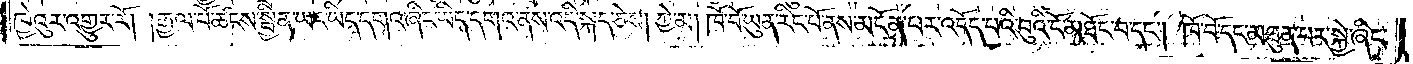ཁྱེའུར་འགྱུར་རོ། །རྒྱལ་པོ་ཚངས་སྦྱིན་ཡང་ཡིད་དགའ་ཡིད་དགའ་ནས་འདི་སྐད་ཅེས། ཀྱེ་མ། ཁོ་བོ་ཡུན་རིང་པོ་ནས་མངོན་པར་འདོད་པའི་བུའི་ངོ་མཐོང་བ་དང༌། ཁོ་བོ་དང་མཐུན་པར་སྐྱེ་ཞིང་
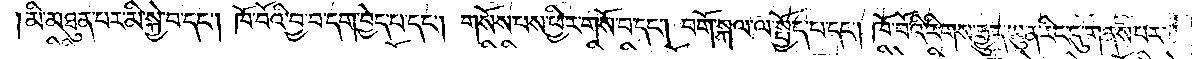མི་མཐུན་པར་མི་སྐྱེ་བ་དང༌། ཁོ་བོའི་བྱ་བ་དག་བྱེད་པ་དང༌། གསོས་པས་ཕྱིར་གསོ་བ་དང༌། བགོ་སྐལ་ལ་སྤྱོད་པ་དང༌། ཁོ་བོའི་རིགས་རྒྱུད་ཡུན་རིང་དུ་གནས་པར་
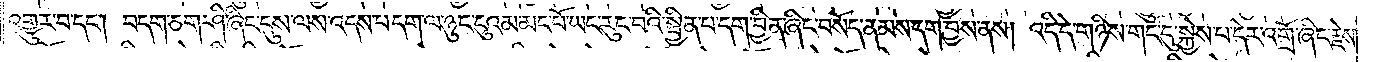འགྱུར་བ་དང༌། བདག་ཅག་ཤི་ཞིང་དུས་ལས་འདས་པ་དག་ལ་ཉུང་ངུའམ་མང་པོ་ཡང་རུང་བའི་སྦྱིན་པ་དག་བྱིན་ཞིང་བསོད་ནམས་དག་བྱས་ནས། འདི་དེ་གཉིས་གང་དུ་སྐྱེས་པ་དེར་འགྲོ་ཞིང་རྗེས་
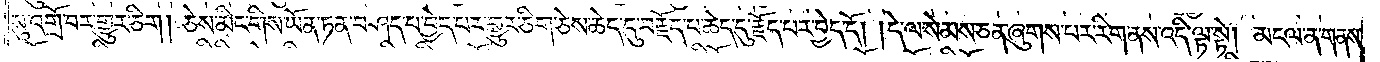སུ་འགྲོ་བར་གྱུར་ཅིག། ཅེས་མིང་གིས་ཡོན་ཏན་བཤད་པ་བྱེད་པར་གྱུར་ཅིག་ཅེས་ཆེད་དུ་བརྗོད་པ་ཆེད་དུ་རྗོད་པར་བྱེད་དོ། །དེ་ལ་སེམས་ཅན་ཞུགས་པར་རིག་ནས་འདི་ལྟ་སྟེ། མངལ་ན་གནས་
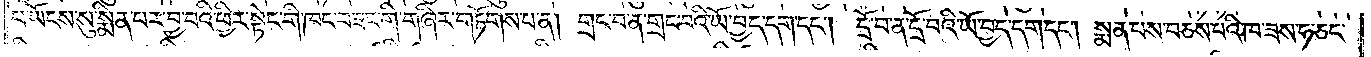པ་ཡོངས་སུ་སྨིན་པར་བྱ་བའི་ཕྱིར་སྟེང་གི་ཁང་བཟང་གི་གཞིར་གཏོགས་པ་ན། གྲང་བ་ན་གྲང་བའི་ཡོ་བྱད་དག་དང༌། དྲོ་བ་ན་དྲོ་བའི་ཡོ་བྱད་དག་དང༌། སྨན་པས་བཅས་པའི་ཁ་ཟས་ཧ་ཅང་
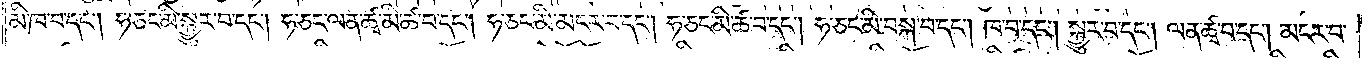མི་ཁ་བ་དང༌། ཧ་ཅང་མི་སྐྱུར་བ་དང༌། ཧ་ཅང་ལན་ཚྭ་མི་ཚ་བ་དང༌། ཧ་ཅང་མི་མངར་བ་དང༌། ཧ་ཅང་མི་ཚ་བ་དང༌། ཧ་ཅང་མི་བསྐ་བ་དང༌། ཁ་བ་དང༌། སྐྱུར་བ་དང༌། ལན་ཚྭ་བ་དང༌། མངར་བ་
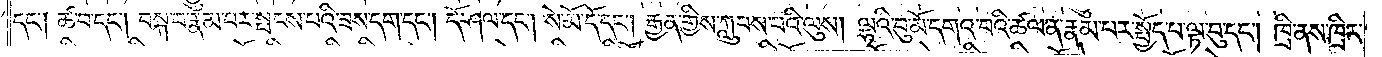དང༌། ཚ་བ་དང༌། བསྐ་བ་རྣམ་པར་སྤངས་པའི་ཟས་དག་དང༌། དོ་ཤལ་དང༌། སེ་མོ་དོ་དང༌། རྒྱན་གྱིས་ཀླུབས་པའི་ལུས། ལྷའི་བུ་མོ་དགའ་བའི་ཚལ་ན་རྣམ་པར་སྤྱོད་པ་ལྟ་བུ་དང༌། ཁྲི་ནས་ཁྲིར་
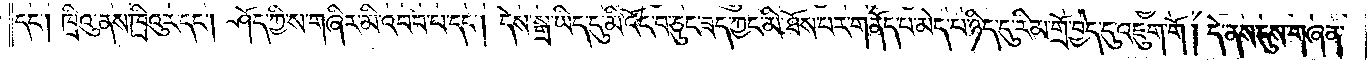དང༌། ཁྲིའུ་ནས་ཁྲིའུར་དང༌། ཤོད་ཀྱི་ས་གཞིར་མི་འབབ་པ་དང༌། དེས་སྒྲ་ཡིད་དུ་མི་འོང་བ་ཅུང་ཟད་ཀྱང་མི་ཐོས་པར་གནོད་པ་མེད་པ་ཉིད་དུ་རིམ་གྲོ་བྱེད་དུ་འཇུག་གོ ། དེ་ནས་དུས་གཞན་
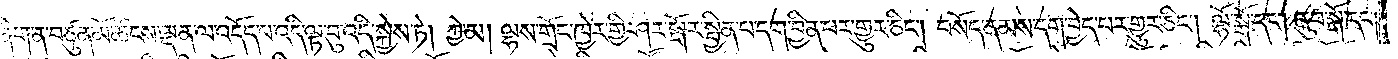ཞིག་ན་བཙུན་མོ་ཚངས་ལྡན་ལ་འདོད་པ་འདི་ལྟ་བུ་འདི་སྐྱེས་ཏེ། ཀྱེ་མ། ལྷས་གྲོང་ཁྱེར་གྱི་ཤར་སྒོར་སྦྱིན་པ་དག་བྱིན་པར་གྱུར་ཅིང༌། བསོད་ནམས་དག་བྱེད་པར་གྱུར་ཅིང༌། ལྷོ་སྒོ་དང༌། ནུབ་སྒོ་དང༌།
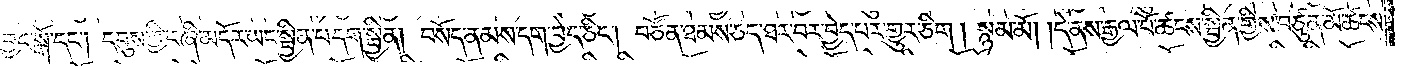བྱང་སྒོ་དང༌། དབུས་ཀྱི་བཞི་མདོར་ཡང་སྦྱིན་པ་དག་སྦྱིན། བསོད་ནམས་དག་བྱེད་ཅིང༌། བཙོན་ཐམས་ཅད་ཐར་བར་བྱེད་པར་གྱུར་ཅིག ། སྙམ་མོ། །དེ་ནས་རྒྱལ་པོ་ཚངས་སྦྱིན་གྱིས་བཙུན་མོ་ཚངས་
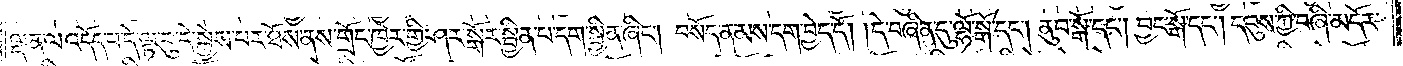ལྡན་ལ་འདོད་པ་དེ་ལྟ་བུ་དེ་སྐྱེས་པར་ཐོས་ནས་གྲོང་ཁྱེར་གྱི་ཤར་སྒོར་སྦྱིན་པ་དག་སྦྱིན་ཞིང༌། བསོད་ནམས་དག་བྱེད་དོ། །དེ་བཞིན་དུ་ལྷོ་སྒོ་དང༌། ནུབ་སྒོ་དང༌། བྱང་སྒོ་དང༌། དབུས་ཀྱི་བཞི་མདོར་
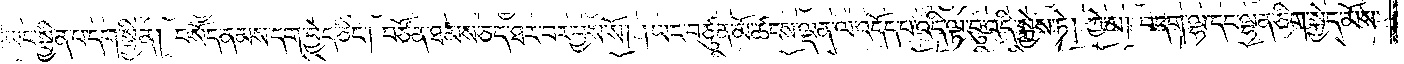ཡང་སྦྱིན་པ་དག་སྦྱིན། བསོད་ནམས་དག་བྱེད་ཅིང༌། བཙོན་ཐམས་ཅད་ཐར་བར་བྱས་སོ། །ཡང་བཙུན་མོ་ཚངས་ལྡན་ལ་འདོད་པ་འདི་ལྟ་བུ་འདི་སྐྱེས་ཏེ། ཀྱེ་མ། བདག་ལྷ་དང་ལྷན་ཅིག་སྐྱེད་མོས་
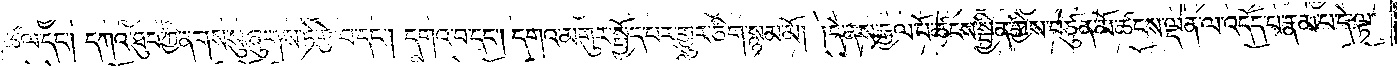ཚལ་དང༌། དཀའ་ཐུབ་ཀྱི་ནགས་སུ་ཞུགས་ཏེ་རྩེ་བ་དང༌། དགའ་བ་དང༌། དགའ་མགུར་སྤྱོད་པར་གྱུར་ཅིག་སྙམ་མོ། །དེ་ནས་རྒྱལ་པོ་ཚངས་སྦྱིན་གྱིས་བཙུན་མོ་ཚངས་ལྡན་ལ་འདོད་པ་རྣམ་པ་དེ་ལྟ་
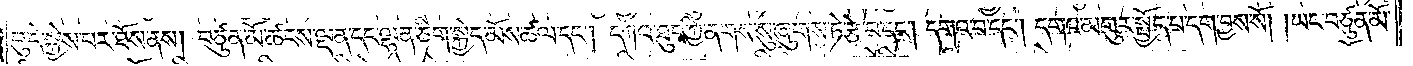བུ་དེ་སྐྱེས་པར་ཐོས་ནས། བཙུན་མོ་ཚངས་ལྡན་དང་ལྷན་ཅིག་སྐྱེད་མོས་ཚལ་དང༌། དཀའ་ཐུབ་ཀྱི་ནགས་སུ་ཞུགས་ཏེ་རྩེ་བ་དང༌། དགའ་བ་དང༌། དགའ་མགུར་སྤྱོད་པ་དག་བྱས་སོ། །ཡང་བཙུན་མོ་
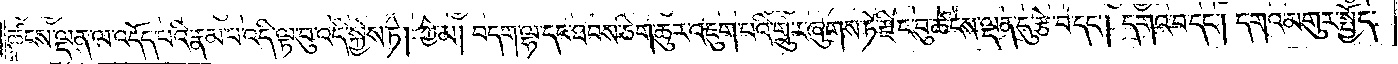ཚངས་ལྡན་ལ་འདོད་པའི་རྣམ་པ་འདི་ལྟ་བུ་འདི་སྐྱེས་ཏེ། ཀྱེ་མ། བདག་ལྷ་དང་ཐབས་ཅིག་ཆུར་འཇུག་པའི་གྲུར་ཞུགས་ཏེ་རྫིང་བུ་ཚངས་ལྡན་དུ་རྩེ་བ་དང༌། དགའ་བ་དང༌། དགའ་མགུར་སྤྱོད་
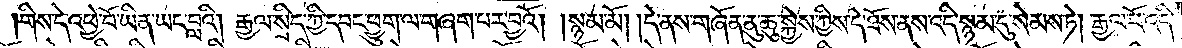གིས་དེ་འཕྱེ་བོ་ཡིན་ཡང་བླའི། རྒྱལ་སྲིད་ཀྱི་དབང་ཕྱུག་ལ་གཞག་པར་བྱའོ། །སྙམ་མོ། །དེ་ནས་གཞོན་ནུ་ཆུ་སྐྱེས་ཀྱིས་དེ་ཐོས་ནས་འདི་སྙམ་དུ་སེམས་ཏེ། རྒྱལ་པོ་འདི་
